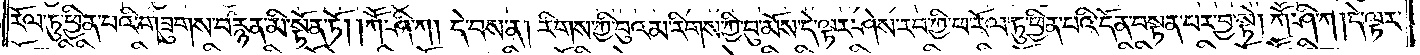རོལ་ཏུ་ཕྱིན་པའི་གཟུགས་བརྙན་མི་སྟོན་ཏོ། །ཀཽ་ཤི་ཀ། དེ་བས་ན། རིགས་ཀྱི་བུའམ་རིགས་ཀྱི་བུ་མོས་དེ་ལྟར་ཤེས་རབ་ཀྱི་ཕ་རོལ་ཏུ་ཕྱིན་པའི་དོན་བསྟན་པར་བྱ་སྟེ། ཀཽ་ཤི་ཀ། དེ་ལྟར་
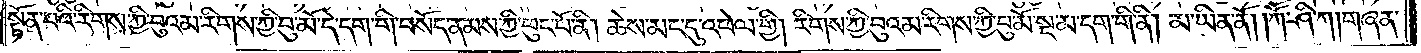སྟོན་པའི་རིགས་ཀྱི་བུའམ་རིགས་ཀྱི་བུ་མོ་དེ་དག་གི་བསོད་ནམས་ཀྱི་ཕུང་པོ་ནི། ཆེས་མང་དུ་འཕེལ་གྱི། རིགས་ཀྱི་བུའམ་རིགས་ཀྱི་བུ་མོ་སྔ་མ་དག་གི་ནི། མ་ཡིན་ནོ། །ཀཽ་ཤི་ཀ།གཞན་
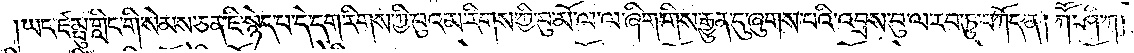ཡང་ཛམྦུ་གླིང་གི་སེམས་ཅན་ཇི་སྙེད་པར་དག་རིགས་ཀྱི་བུའམ་རིགས་ཀྱི་བུ་མོ་ལ་ལ་ཞིག་གིས་རྒྱུན་དུ་ཞུགས་པའི་འབྲས་བུ་ལ་རབ་ཏུ་བཀོད་ན། ཀཽ་ཤི་ཀ། དེ་ཇི་
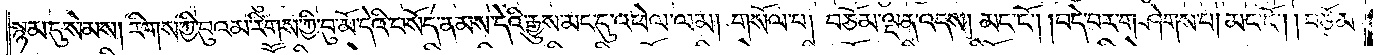སྙམ་དུ་སེམས། རིགས་ཀྱི་བུའམ་རིགས་ཀྱི་བུ་མོ་དེའི་བསོད་ནམས་དེའི་རྒྱུས་མང་དུ་འཕེལ་ལམ། གསོལ་པ། བཅོམ་ལྡན་འདས། མང་ངོ༌། །བདེ་བར་གཤེགས་པ། མང་ངོ༌། །བཅོམ་
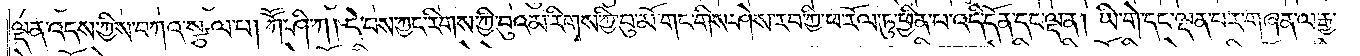ལྡན་འདས་ཀྱིས་བཀའ་སྩལ་པ། ཀཽ་ཤི་ཀ། དེ་བས་ཀྱང་རིགས་ཀྱི་བུའམ་རིགས་ཀྱི་བུ་མོ་གང་གིས་ཤེས་རབ་ཀྱི་ཕ་རོལ་ཏུ་ཕྱིན་པ་འདི་དོན་དང་ལྡན། ཡི་གེ་དང་ལྡན་པར་གཞན་ལ་རྒྱ་
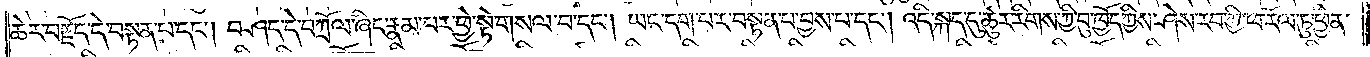ཆེར་བརྗོད་དེ་བསྟན་པ་དང༌། བཤད་དེ་བཀྲོལ་ཞིང་རྣམ་པར་ཕྱེ་སྟེ་གསལ་བ་དང༌། ཡང་དག་པར་བསྟན་པ་བྱས་པ་དང༌། འདི་སྐད་དུ་ཚུར་རིགས་ཀྱི་བུ་ཁྱོད་ཀྱིས་ཤེས་རབ་ཀྱི་ཕ་རོལ་ཏུ་ཕྱིན་
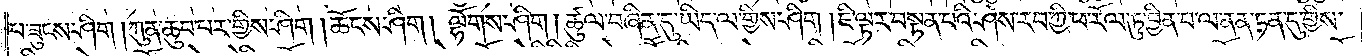པ་ཟུངས་ཤིག །ཀུན་ཆུབ་པར་གྱིས་ཤིག །ཆོངས་ཤིག །ལྷོགས་ཤིག །ཚུལ་བཞིན་དུ་ཡིད་ལ་གྱིས་ཤིག། ཇི་ལྟར་བསྟན་པའི་ཤེས་རབ་ཀྱི་ཕ་རོལ་ཏུ་ཕྱི་ནང་ལ་ནན་ཏན་དུ་གྱིས་
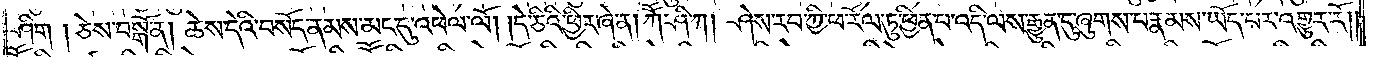ཤིག །ཅེས་བསྒོ་ན། ཆེས་དེའི་བསོད་ནམས་མང་དུ་འཕེལ་ལོ། །དེ་ཅིའི་ཕྱིར་ཞེ་ན། ཀཽ་ཤི་ཀ། ཤེས་རབ་ཀྱི་ཕ་རོལ་ཏུ་ཕྱིན་པ་འདི་ལས་རྒྱུན་དུ་ཞུགས་པ་རྣམས་ཡོད་པར་འགྱུར་རོ། །
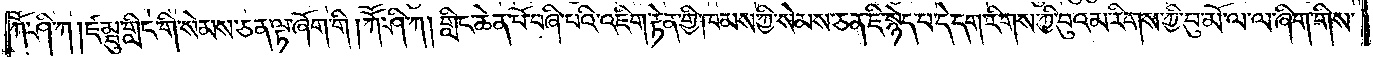ཀཽ་ཤི་ཀ། ཛམྦུ་གླིང་གི་སེམས་ཅན་ལྟ་ཞོག་གོ། ཀཽ་ཤི་ཀ། གླིང་ཆེན་པོ་བཞི་པའི་འཇིག་རྟེན་གྱི་ཁམས་ཀྱི་སེམས་ཅན་ཇི་སྙེད་པ་དེ་དག་རིགས་ཀྱི་བུའམ་རིགས་ཀྱི་བུ་མོ་ལ་ལ་ཞིག་གིས་
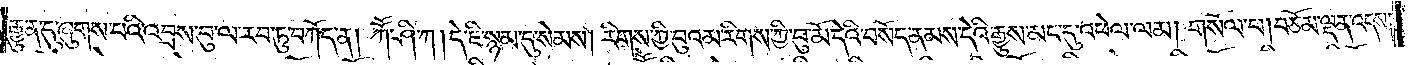རྒྱུན་དུ་ཞུགས་པའི་འབྲས་བུ་ལ་རབ་ཏུ་བཀོད་ན། ཀཽ་ཤི་ཀ། དེ་ཇི་སྙམ་དུ་སེམས། རིགས་ཀྱི་བུའམ་རིགས་ཀྱི་བུ་མོ་དེའི་བསོད་ནམས་དེའི་རྒྱུས་མང་དུ་འཕེལ་ལམ། གསོལ་པ། བཅོམ་ལྡན་འདས་
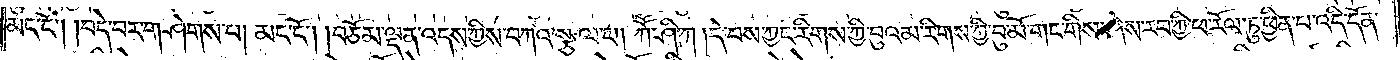མང་ངོ༌། །བདེ་བར་གཤེགས་པ། མང་ངོ༌། །བཅོམ་ལྡན་འདས་ཀྱིས་བཀའ་སྩལ་པ། ཀཽ་ཤི་ཀ། དེ་བས་ཀྱང་རིགས་ཀྱི་བུའམ་རིགས་ཀྱི་བུ་མོ་གང་གིས་ཤེས་རབ་ཀྱི་ཕ་རོལ་ཏུ་ཕྱིན་པ་འདི་དོན་
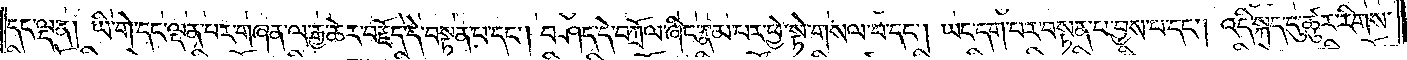དང་ལྡན། ཡི་གེ་དང་ལྡན་པར་གཞན་ལ་རྒྱ་ཆེར་བརྗོད་དེ་བསྟན་པ་དང༌། བཤད་དེ་བཀྲོལ་ཞིང་རྣམ་པར་ཕྱེ་སྟེ་གསལ་བ་དང༌། ཡང་དག་པར་བསྟན་པ་བྱས་པ་དང༌། འདི་སྐད་དུ་ཚུར་རིགས་
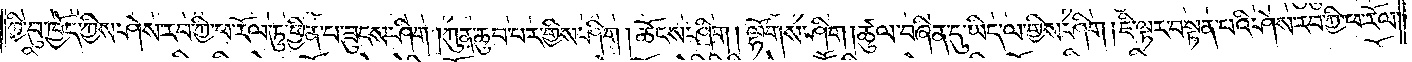ཀྱི་བུ་ཁྱོད་ཀྱིས་ཤེས་རབ་ཀྱི་ཕ་རོལ་ཏུ་ཕྱིན་པ་ཟུངས་ཤིག །ཀུན་ཆུབ་པར་གྱིས་ཤིག །ཆོངས་ཤིག། ལྷོགས་ཤིག །ཚུལ་བཞིན་དུ་ཡིད་ལ་གྱིས་ཤིག །ཇི་ལྟར་བསྟན་པའི་ཤེས་རབ་ཀྱི་ཕ་རོལ་
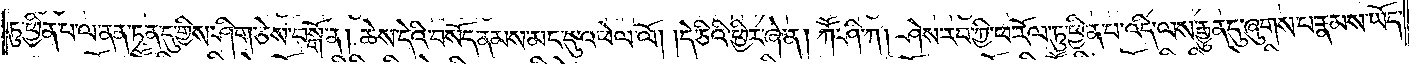ཏུ་ཕྱིན་པ་ལ་ནན་ཏན་དུ་གྱིས་ཤིག་ཅེས་བསྒོ་ན། ཆེས་དེའི་བསོད་ནམས་མང་དུ་འཕེལ་ལོ། །དེ་ཅིའི་ཕྱིར་ཞེ་ན། ཀཽ་ཤི་ཀ། ཤེས་རབ་ཀྱི་ཕ་རོལ་ཏུ་ཕྱིན་པ་འདི་ལས་རྒྱུན་དུ་ཞུགས་པ་རྣམས་ཡོད་
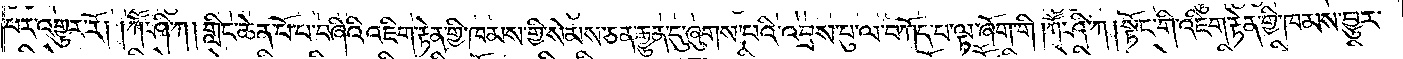པར་འགྱུར་རོ། །ཀཽ་ཤི་ཀ། གླིང་ཆེན་པོ་པ་བཞིའི་འཇིག་རྟེན་གྱི་ཁམས་གྱི་སེམས་ཅན་རྒྱུན་དུ་ཞུགས་པའི་འབྲས་བུ་ལ་བཀོད་པ་ལྟ་ཞོག་གི །ཀཽ་ཤི་ཀ། སྟོང་གི་འཇིག་རྟེན་གྱི་ཁམས་བྱུར་
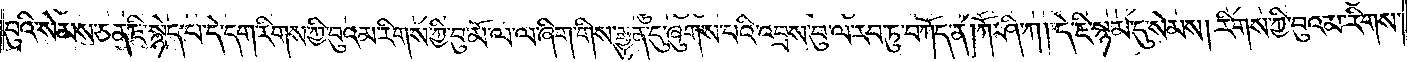བུའི་སེམས་ཅན་ཇི་སྙེད་པ་དེ་དག་རིགས་ཀྱི་བུའམ་རིགས་ཀྱི་བུ་མོ་ལ་ལ་ཞིག་གིས་རྒྱུན་དུ་ཞུགས་པའི་འབྲས་བུ་ལ་རབ་ཏུ་བཀོད་ན། ཀཽ་ཤི་ཀ། དེ་ཇི་སྙམ་དུ་སེམས། རིགས་ཀྱི་བུའམ་རིགས་
